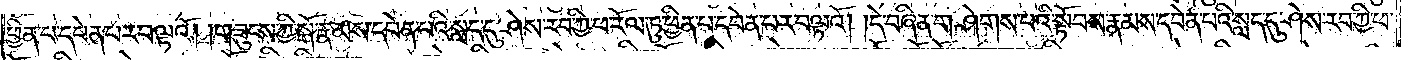ཕྱིན་པ་དབེན་པར་བལྟའོ། །གཟུངས་ཀྱི་སྒོ་རྣམས་དབེན་པའི་སླད་དུ་ཤེས་རབ་ཀྱི་ཕ་རོལ་ཏུ་ཕྱིན་པ་དབེན་པར་བལྟའོ། །དེ་བཞིན་གཤེགས་པའི་སྟོབས་རྣམས་དབེན་པའི་སླད་དུ་ཤེས་རབ་ཀྱི་ཕ་
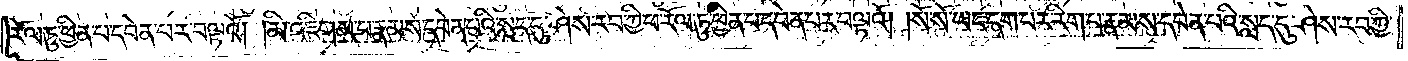རོལ་ཏུ་ཕྱིན་པ་དབེན་པར་བལྟའོ། །མི་འཇིགས་པ་རྣམས་དབེན་པའི་སླད་དུ་ཤེས་རབ་ཀྱི་ཕ་རོལ་ཏུ་ཕྱིན་པ་དབེན་པར་བལྟའོ། །སོ་སོ་ཡང་དག་པར་རིག་པ་རྣམས་དབེན་པའི་སླད་དུ་ཤེས་རབ་ཀྱི་
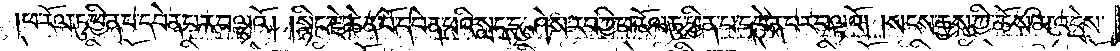ཕ་རོལ་ཏུ་ཕྱིན་པ་དབེན་པར་བལྟའོ། །སྙིང་རྗེ་ཆེན་པོ་དབེན་པའི་སླད་དུ་ཤེས་རབ་ཀྱི་ཕ་རོལ་ཏུ་ཕྱིན་པ་དབེན་པར་བལྟའོ། །སངས་རྒྱས་ཀྱི་ཆོས་མ་འདྲེས་
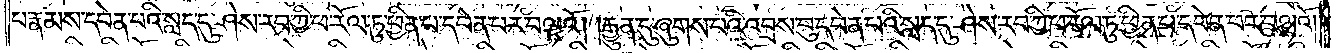པ་རྣམས་དབེན་པའི་སླད་དུ་ཤེས་རབ་ཀྱི་ཕ་རོལ་ཏུ་ཕྱིན་པ་དབེན་པར་བལྟའོ། །རྒྱུན་དུ་ཞུགས་པའི་འབྲས་བུ་དབེན་པའི་སླད་དུ་ཤེས་རབ་ཀྱི་ཕ་རོལ་ཏུ་ཕྱིན་པ་དབེན་པར་བལྟའོ། །
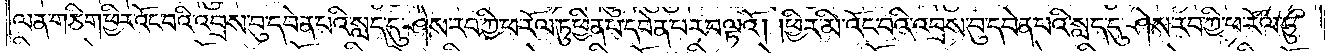ལན་གཅིག་ཕྱིར་འོང་བའི་འབྲས་བུ་དབེན་པའི་སླད་དུ་ཤེས་རབ་ཀྱི་ཕ་རོལ་ཏུ་ཕྱིན་པ་དབེན་པར་བལྟའོ། །ཕྱིར་མི་འོང་བའི་འབྲས་བུ་དབེན་པའི་སླད་དུ་ཤེས་རབ་ཀྱི་ཕ་རོལ་ཏུ་
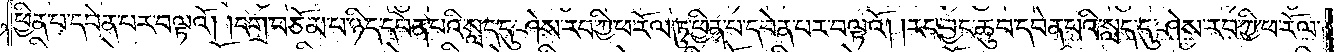ཕྱིན་པ་དབེན་པར་བལྟའོ། །དགྲ་བཅོམ་པ་ཉིད་དབེན་པའི་སླད་དུ་ཤེས་རབ་ཀྱི་ཕ་རོལ་ཏུ་ཕྱིན་པ་དབེན་པར་བལྟའོ། །རང་བྱང་ཆུབ་དབེན་པའི་སླད་དུ་ཤེས་རབ་ཀྱི་ཕ་རོལ་
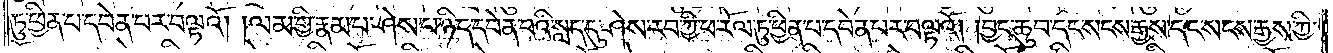ཏུ་ཕྱིན་པ་དབེན་པར་བལྟའོ། །ལམ་གྱི་རྣམ་པ་ཤེས་པ་ཉིད་དབེན་པའི་སླད་དུ་ཤེས་རབ་ཀྱི་ཕ་རོལ་ཏུ་ཕྱིན་པ་དབེན་པར་བལྟའོ། །བྱང་ཆུབ་དང་སངས་རྒྱས་དང་སངས་རྒྱས་ཀྱི་
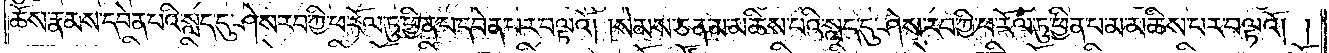ཆོས་རྣམས་དབེན་པའི་སླད་དུ་ཤེས་རབ་ཀྱི་ཕ་རོལ་ཏུ་ཕྱིན་པ་དབེན་པར་བལྟའོ། །སེམས་ཅན་མ་མཆིས་པའི་སླད་དུ་ཤེས་རབ་ཀྱི་ཕ་རོལ་ཏུ་ཕྱིན་པ་མ་མཆིས་པར་བལྟའོ། །
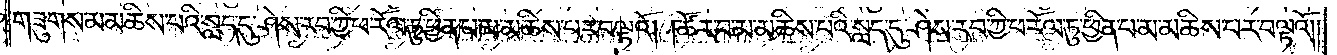གཟུགས་མ་མཆིས་པའི་སླད་དུ་ཤེས་རབ་ཀྱི་ཕ་རོལ་ཏུ་ཕྱིན་པ་མ་མཆིས་པར་བལྟའོ། །ཚོར་བ་མ་མཆིས་པའི་སླད་དུ་ཤེས་རབ་ཀྱི་ཕ་རོལ་ཏུ་ཕྱིན་པ་མ་མཆིས་པར་བལྟའོ། །
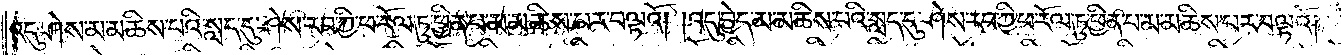འདུ་ཤེས་མ་མཆིས་པའི་སླད་དུ་ཤེས་རབ་ཀྱི་ཕ་རོལ་ཏུ་ཕྱིན་པ་མ་མཆིས་པར་བལྟའོ། །འདུ་བྱེད་མ་མཆིས་པའི་སླད་དུ་ཤེས་རབ་ཀྱི་ཕ་རོལ་ཏུ་ཕྱིན་པ་མ་མཆིས་པར་བལྟའོ། །
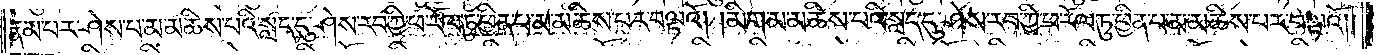རྣམ་པར་ཤེས་པ་མ་མཆིས་པའི་སླད་དུ་ཤེས་རབ་ཀྱི་ཕ་རོལ་ཏུ་ཕྱིན་པ་མ་མཆིས་པར་བལྟའོ། །མིག་མ་མཆིས་པའི་སླད་དུ་ཤེས་རབ་ཀྱི་ཕ་རོལ་ཏུ་ཕྱིན་པ་མ་མཆིས་པར་བལྟའོ། །
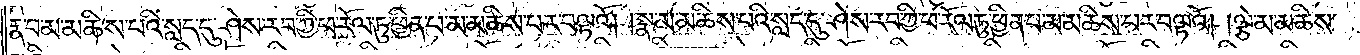རྣ་བ་མ་མཆིས་པའི་སླད་དུ་ཤེས་རབ་ཀྱི་ཕ་རོལ་ཏུ་ཕྱིན་པ་མ་མཆིས་པར་བལྟའོ། །སྣ་མ་མཆིས་པའི་སླད་དུ་ཤེས་རབ་ཀྱི་ཕ་རོལ་ཏུ་ཕྱིན་པ་མ་མཆིས་པར་བལྟའོ། །ལྕེ་མ་མཆིས་
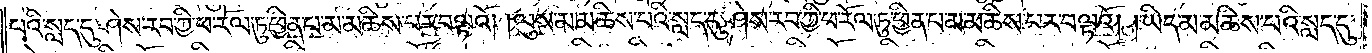པའི་སླད་དུ་ཤེས་རབ་ཀྱི་ཕ་རོལ་ཏུ་ཕྱིན་པ་མ་མཆིས་པར་བལྟའོ། །ལུས་མ་མཆིས་པའི་སླད་དུ་ཤེས་རབ་ཀྱི་ཕ་རོལ་ཏུ་ཕྱིན་པ་མ་མཆིས་པར་བལྟའོ། །ཡིད་མ་མཆིས་པའི་སླད་དུ་
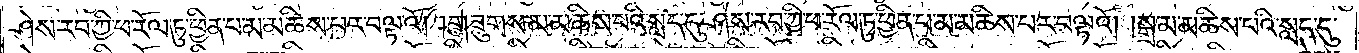ཤེས་རབ་ཀྱི་ཕ་རོལ་ཏུ་ཕྱིན་པ་མ་མཆིས་པར་བལྟའོ། །གཟུགས་མ་མཆིས་པའི་སླད་དུ་ཤེས་རབ་ཀྱི་ཕ་རོལ་ཏུ་ཕྱིན་པ་མ་མཆིས་པར་བལྟའོ། །སྒྲ་མ་མཆིས་པའི་སླད་དུ་
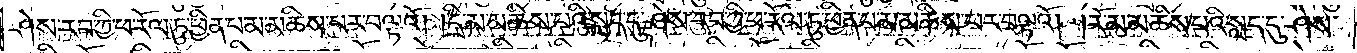ཤེས་རབ་ཀྱི་ཕ་རོལ་ཏུ་ཕྱིན་པ་མ་མཆིས་པར་བལྟའོ། །དྲི་མ་མཆིས་པའི་སླད་དུ་ཤེས་རབ་ཀྱི་ཕ་རོལ་ཏུ་ཕྱིན་པ་མ་མཆིས་པར་བལྟའོ། །རོ་མ་མཆིས་པའི་སླད་དུ་ཤེས་
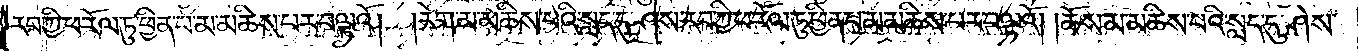རབ་ཀྱི་ཕ་རོལ་ཏུ་ཕྱིན་པ་མ་མཆིས་པར་བལྟའོ། །རེག་མ་མཆིས་པའི་སླད་དུ་ཤེས་རབ་ཀྱི་ཕ་རོལ་ཏུ་ཕྱིན་པ་མ་མཆིས་པར་བལྟའོ། །ཆོས་མ་མཆིས་པའི་སླད་དུ་ཤེས་
